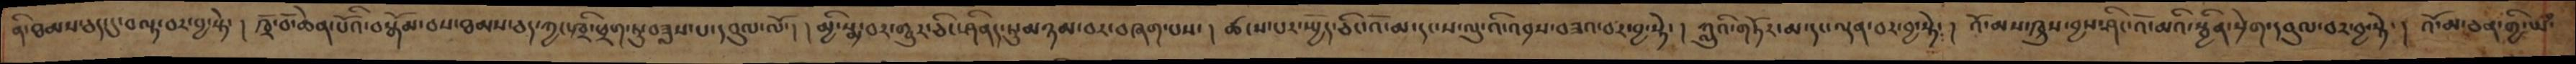ནི་ཐམས་ཅད་དུ་བལྟ་བར་བྱ་སྟེ་། ཁྲོ་བོ་ཆེན་པོའི་བསྒོམ་པས་ཐམས་ཅད་ཀྱང་ཁྲི་ཕྲག་ཏུ་བཟླས་པ་དབུལ་ལོ་། །མྱི་སྨྲ་བར་གྱུར་ཅིང་ཤིནད་ཏུ་མཉམ་བར་བཞག་པས་། ཚངས་པར་སྤྱོད་ཅིང་འོ་མ་དང་ས་ལུ་འི་འབྲས་བཟའ་བར་བྱ་སྟེ་། ཀླུའི་གཏོར་མ་དང་ལྡན་བར་བྱ་སྟེ་། འོ་མས་ཁྲུས་བྱས་ཤིང་འོ་མའི་སྦྱིན་སྲེག་དབུལ་བར་བྱ་སྟེ་། འོ་མ་ཅན་གྱི་ཡ་
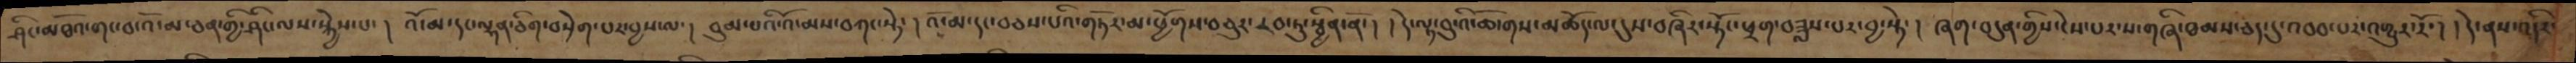ཤིང་མཐོའ་གང་བ་འོ་མ་ཅན་གྱི་ཤིང་ལས་སྐྱེས་པ་། འོ་མ་དང་ལྷན་ཅིག་བསྲེག་པར་བྱས་ལ་། བུམ་པའི་འོ་མས་བཀང་སྟེ་། འོ་མ་དང་བཅས་པའི་གཏོར་མ་ཕྱོགས་བཅུར་རབ་ཏུ་སྦྱིན་ནོ་། །དེ་ལྟ་བུ་འི་ཆོ་གས་མཆོད་ལ་དུས་བཞིར་སྟོང་ཕྲག་བཟླས་པར་བྱ་སྟེ་། ཞག་བདུན་གྱིས་ངེས་པར་ས་གཞི་ཐམས་ཅད་དུ་འབབ་པར་འགྱུར་རོ་། །དེ་ནས་འདིར་
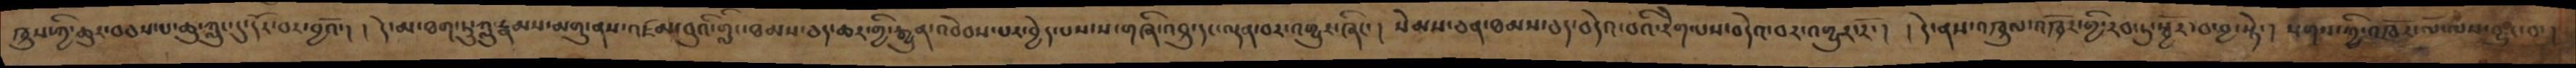ཁྲུས་ཀྱི་ཆུར་བབས་པ་ཆུ་ཀླུང་དུ་དོང་བར་བྱའོ་། །དེ་མ་ཐག་ཏུ་ཀླུ་རྣམས་མགུ་ནས་འཛམ་བུའི་གླིང་ཐམས་ཅད་ཆར་གྱི་རྒྱུན་འབེབས་པར་བྱེད་པས་ས་གཞི་འབྲུ་དང་ལྡན་བར་འགྱུར་ཞིང་། སེམས་ཅན་ཐམས་ཅད་བདེའ་བའི་རེག་པས་བདེའ་བར་འགྱུར་རོ་། །དེ་ནས་འཁྲུལ་འཁོར་གྱི་རབ་ཏུ་སྦྱོར་བ་བྱ་སྟེ་། སྔགས་ཀྱི་འཁོར་ལོ་ལས་བྱུང་བ་།
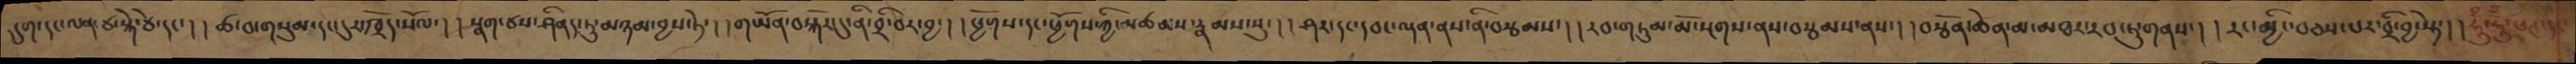དུག་དང་ལན་ཙ་སྐེ་ཙེ་དང་། །ཚ་བ་གསུམ་དང་དུར་ཁྲོད་སོལ་། །སྣག་ཙས་ཤིནད་ཏུ་མཉམ་བྱས་ཏེ་། །གཡོན་བསྐོར་དུ་ནི་བྲི་བར་བྱ་། །ཕྱོགས་དང་ཕྱོགས་ཀྱི་མཚམས་རྣམས་སུ་། །ཤར་དང་དབང་ལྡན་ནས་ནི་བརྩམས་། །རབ་གཏུམ་མོ་སྔགས་ནས་བརྩམས་ནས་། །བརྩོན་ཆེན་མ་མཐར་རབ་ཏུ་གནས་། །རང་མྱིང་བཅས་པར་བྲི་བྱ་སྟེ་། །ཧཱུྃ་ཧཱུྂ་ཕཊ་དང
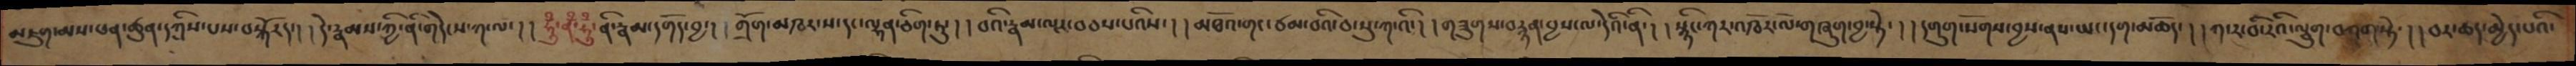མཇུག་མས་ཕན་ཚུན་དཀྲིས་པས་བསྐོརད་། །དེ་རྣམས་ཀྱི་ནི་གདེངས་ཀ་ལ་། །ཧཱུྃ་ནྃ་ཧཱུྃ་ནི་རྣམ་དགོད་བྱ་། །གྲོག་མཁར་ས་དང་ལྷན་ཅིག་ཏུ་། །བའི་རྣམ་ལྔར་བཅས་པའིས་། །མཐོའ་གང་ཙམ་བའི་བ་སུ་ཀ་འི་། །གཟུགས་བརྙན་བྱས་ལ་དེའི་ནི་། །སྙིང་ཀར་འཁོར་ལོ་གཞུག་བྱ་སྟེ་། །དགུག་སོགས་བྱས་ནས་ཡང་དག་མཆོད་། །ཀ་ར་བི་རིའི་ལྕུག་བཀག་སྟེ་། །བར་ཆད་མྱེད་པའི་
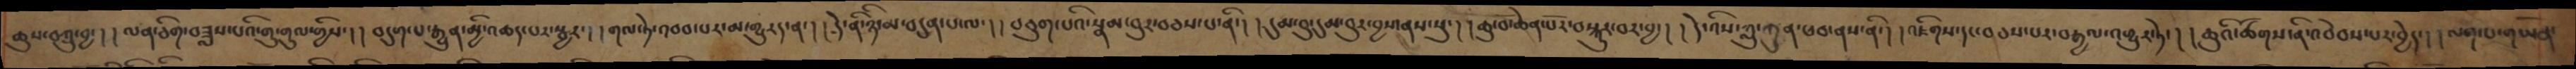ཆུས་བཀྲུ་བྱ་།།ལན་ཅིག་བཟླས་པའི་གུ་གུལ་གྱིས་། །བདུགས་པ་རྒྱུན་མྱི་འཆད་པར་སྦྱར་། །གལ་ཏེ་འབབ་པར་མ་གྱུརད་ན་། །དེ་ནི་ཉི་མ་བདུན་པ་ལ་། །བཅུག་པའི་སྣམ་བུར་བཅས་པ་ནི་། །དུམ་བུ་དུམ་བུར་བྱས་ནས་སུ་། །ཆུ་བོ་ཆེན་པོར་བསྐུར་བར་བྱ་། །དེ་འིས་ཀླུ་ཀུན་ཕབ་ནས་ནི་། །འཇིགས་དང་བཅས་པར་བརྒྱལ་འགྱུར་ཏེ་། ཆུའི་ཚོགས་ནི་འབེབས་པར་བྱེད་། །ལག་པ་གཡོན་
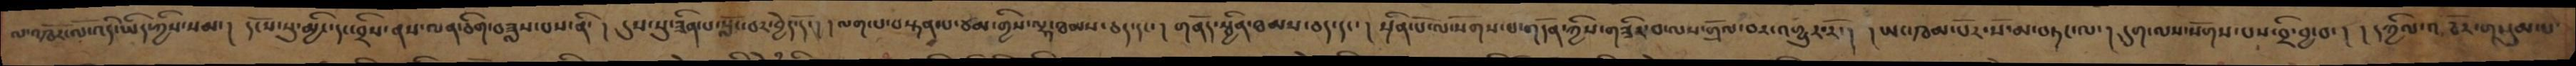ལ་འཁོར་ལོ་འདི་ཡིད་ཀྱིས་སམ་། དངོས་སུ་མྱིང་དང་བྲིས་ནས་ལན་ཅིག་བཟླས་པས་ནི་། དུས་སུ་ཟིན་པ་སློང་བར་བྱེད་དོ་། །ལག་པ་བསྟན་པ་ཙམ་གྱིས་ལྷ་ཐམས་ཅད་དང་། གནོད་སྦྱིན་ཐམས་ཅད་དང་། སྔོན་པོ་ལ་སོགས་པ་གདོན་ཀྱིས་གཟིར་བ་ལས་གྲོལ་བར་འགྱུར་རོ་། །ཡང་ཁམ་པོར་སོ་མ་བཏང་ལ་། དུག་ལས་སོགས་པས་བྲི་བྱ་བ་། །དཀྱིལ་འཁོར་གསུམ་པ་
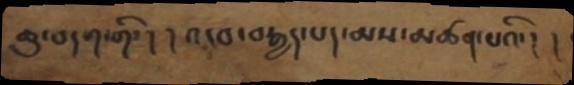ཆུ་བདག་གི་། །འདབ་བརྒྱད་པད་མས་མཚན་པའི་། །
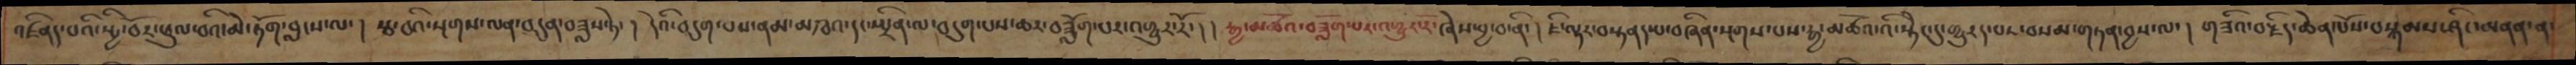འཛིནད་པའི་སྤྱི་བོར་ཕུལ་བའི་མེ་ཏོག་བླངས་ལ་། རྩ་བའི་སྔགས་ལན་བདུན་བཟླས་ཏེ་། དེའི་བདུག་པས་ནམ་མཁའ་དང་སྤྲིན་ལ་བདུག་པས་ཆར་བཟློག་པར་འགྱུར་རོ་། །རྒྱ་མཚོའ་བཟློག་པར་འགྱུར་རོ་ཞེས་བྱ་བ་ནི་། ཇི་ལྟར་བསྟནད་པ་བཞིན་སྔགས་པས་རྒྱ་མཚོའི་སྟེང་དུ་གྱུརད་བར་བསམ་གཏན་བྱས་ལ་།  གཟིའ་བརྗེད་ཆེན་པོས་བསྐམས་ཤིང་མནན་ན་
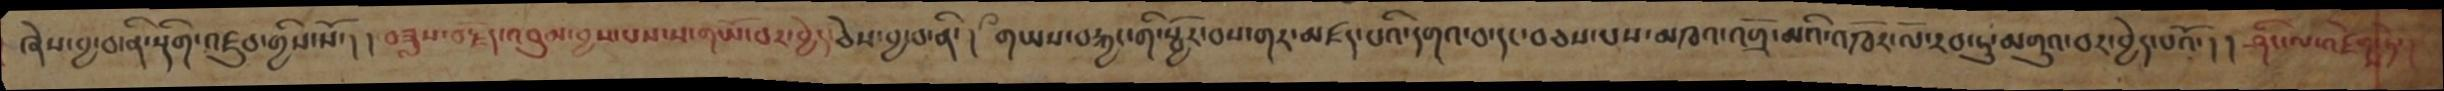ཞེས་བྱ་བ་ནི་སྡིག་འཛུབ་གྱིས་སོ་། །བཟླས་བརྗོད་འབུམ་བྱས་པས་ས་གཡོ་བར་བྱེད་ཅེས་བྱ་བ་ནི་། གཡས་བརྐྱང་གི་སྦྱོར་བས་གར་མཛད་པའི་དགའ་བ་དང་བཅས་པས་མཁའ་འགྲོ་མའི་འཁོར་ལོ་རབ་ཏུ་མགུའ་བར་བྱེད་པའོ་། །ཤིང་ལ་འཛེགས་ཏེ་
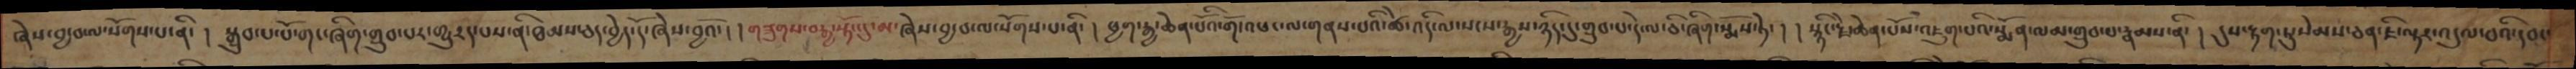ཞེས་བྱ་བ་ལ་སོགས་པ་ནི་། སྒྲུབ་པ་པོ་གང་ཞིག་གྲུབ་པར་གྱུརད་པས་ནི་ཐམས་ཅད་བྱེད་དོ་ཞེས་བྱའོ་། །གཟུགས་བརྒྱ་སྟོང་དུ་མ་ཞེས་བྱ་བ་ལ་སོགས་པ་ནི་། ཕྱག་རྒྱ་ཆེན་པོའི་གོ་འཕང་ལ་གནས་པའི་ཚེ་འདི་ལ་སངས་རྒྱས་ཉིད་དུ་གྲུབ་པ་དེ་ལ་ཅི་ཞིག་སྨོས་ཏེ་། །སྙིང་རྗེ་ཆེན་པོས་འཇུག་པའི་སྨོན་ལམ་གྲུབ་པ་རྣམས་ནི་། དུས་རྟག་ཏུ་སེམས་ཅན་ཇི་ལྟར་འདུལ་བའི་དབང་
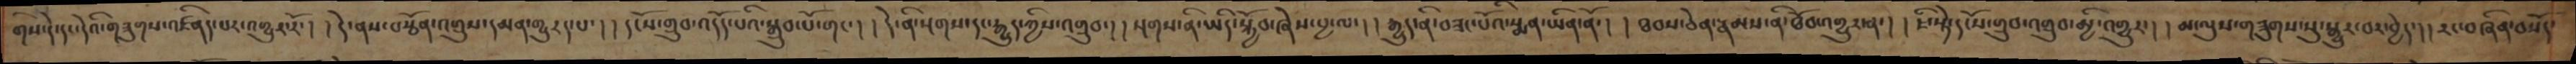གིས་དེ་དང་དེའི་གཟུགས་འཛིནད་པར་འགྱུར་རོ་། །དེ་ནས་བརྩོན་འགྲུས་དམན་གྱུརད་པ་། །དངོས་གྲུབ་འདོད་པའི་སྒྲུབ་པོ་གང་། །དེ་ནི་སྔགས་དང་རྒྱུད་ཀྱིས་འགྲུབ་། །སྔགས་ནི་ཡིད་སྐྱོབ་ཞེས་བྱ་ལ་། །རྒྱུད་ནི་བཟང་པོའི་སྨན་ཡིན་ནོ་། །ཐབས་ཅེན་རྣམས་ནི་ཐོབ་འགྱུར་ན་། །ཇི་སྟེ་དངོས་གྲུབ་འགྲུབ་མྱི་འགྱུར་། །མ་ལུས་གཟུགས་སུ་སྒྱུར་བར་བྱེད་།།རང་བཞིན་བསོད་
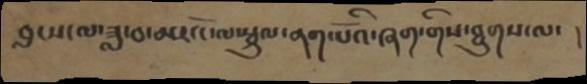བླངས་ལ་ཟླ་བ་མར་ངོ་ལ་སྦྲུལ་ནག་པོའི་ཞག་གིས་བྱུགས་ལ་ །
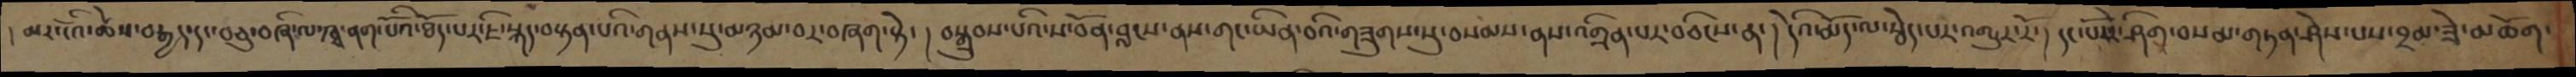།མར་ངོའི་ཚེས་བརྒྱད་དང་བཅུ་བཞི་ལ་ཁྭ་ནག་པོའི་ཐོད་པར་ཇི་སྐད་བསྟན་པའི་གནས་སུ་མཉམ་པར་བཞག་སྟེ་། བསྒྲུབས་པའི་ས་བོན་བླངས་ནས་གང་ཡིན་བའི་གཟུགས་སུ་བསམས་ནས་འགྲིན་པར་བཅིངས་ན་། དེའི་མོད་ལ་སྦེད་པར་འགྱུར་རོ་། དང་པོརརེ་ཤིག་བསམ་གཏན་ཤེས་པས་བྲམ་ཟེ་མཆོག་
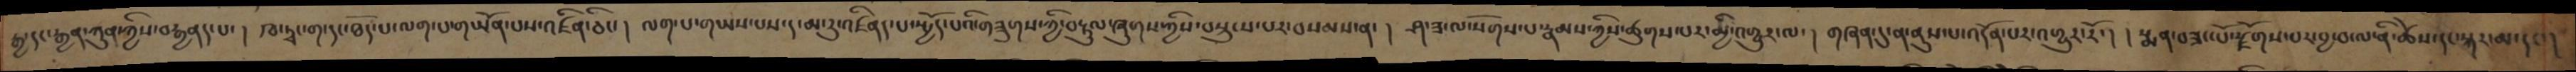རྒྱ་དང་རྒྱན་ཀུན་ཀྱིས་བརྒྱནད་པ་། ཁ་ཏྭང་ག་དང་ཐོད་པ་ལག་པ་གཡོན་པས་འཛིན་ཅིང་། ལག་པ་གཡས་པས་ད་མ་རུ་འཛིནད་པ་སྤྱོད་པའི་གཟུགས་ཀྱི་བརྟུལ་ཞུགས་ཀྱིས་བསྲུངས་པར་བསམས་ན་། ཤ་ཟ་ལ་སོག་པ་རྣམས་ཀྱིས་ཚུགས་པར་མྱི་འགྱུར་ལ་། གཞན་དུ་ན་ནུས་པ་འདོན་པར་འགྱུར་རོ་། །སྨན་བཟང་པོ་རྫོགས་པར་བྱ་བ་ལ་ནི་ཚེས་དང་སྐར་མ་དང་།
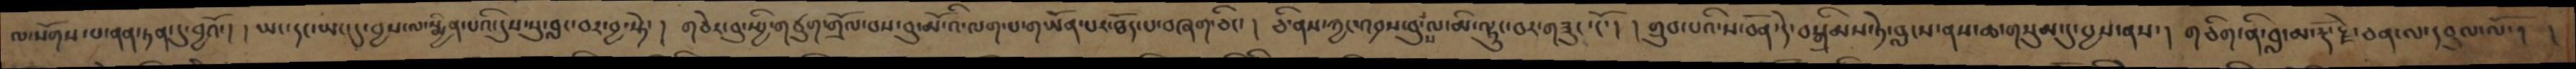ལ་སོགས་པ་ནན་ཏན་དུ་བྱའོ་། །ཡང་དང་ཡང་དུ་བྱས་ལ་སྨིན་པའི་དུས་སུ་བླང་བར་བྱ་སྟེ་། གཅེར་བུ་སྤྱི་གཙུག་གྲོལ་བས་བུ་མོ་འི་ལག་པ་གཡོན་པར་ཐོད་པ་བཞག་ཅིང་། ཅི་ནས་ཀྱང་འབྲས་བུ་ས་ལ་མི་ལྷུང་བར་གཟུང་ངོ་། །གྲུབ་པའི་ས་བོན་དེ་བསྒྲིམས་ཏེ་བླངས་ནས་ཆ་གསུམ་དུ་བྱས་ནས་། གཅིག་ནི་བླ་མ་རྡོ་རྗེ་ཅན་ལ་དབུལ་ལོ་། །
